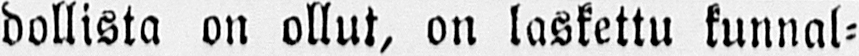dollista on ollut, on laskettu kunnal-
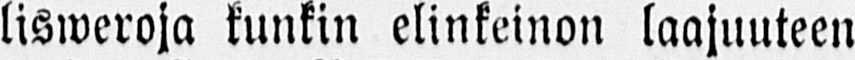lisweroja kunkin elinkeinon laajuuteen
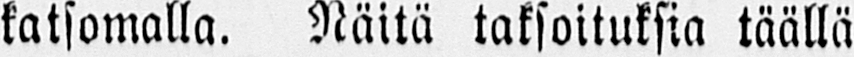katsomalla. Näitä taksoituksia täällä
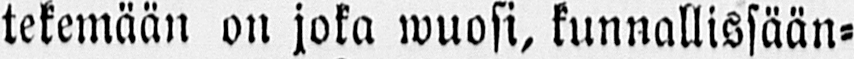tekemään on joka wuosi, kunnallissään-
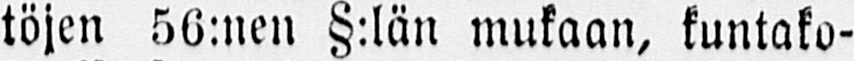töjen 56:nen §:län mukaan, kuntako-
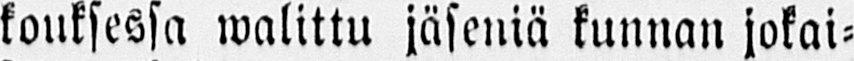kouksessa walittu jäseniä kunnan jokai-
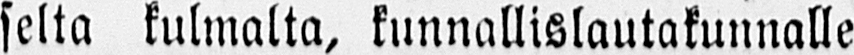selta kulmalta, kunnallislautakunnalle
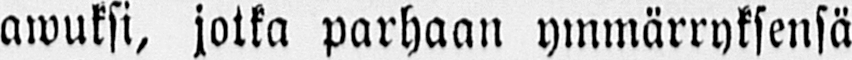awuksi, jotka parhaan ymmärryksensä
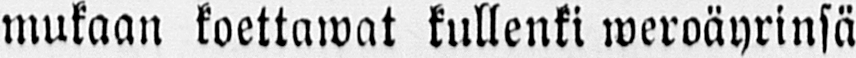mukaan koettawat kullenki weroäyrinsä
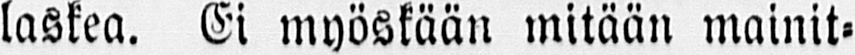laskea. Ei myöskään mitään mainit-
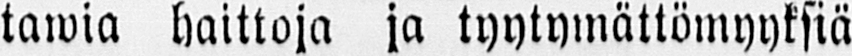tawia haittoja ja tyytymättömyyksiä
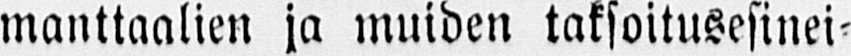manttaalien ja muiden taksoitusesinei-
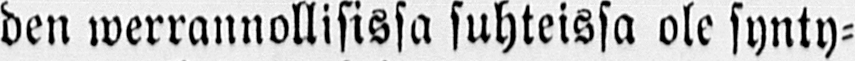den werrannollisissa suhteissa ole synty-
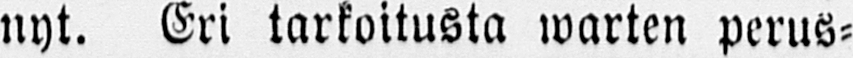nyt. Eri tarkoitusta warten perus-
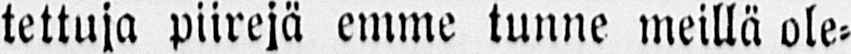tettuja piirejä emme tunne meillä ole-
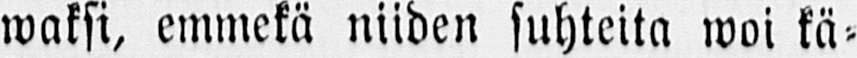waksi, emmekä niiden suhteita woi kä-
